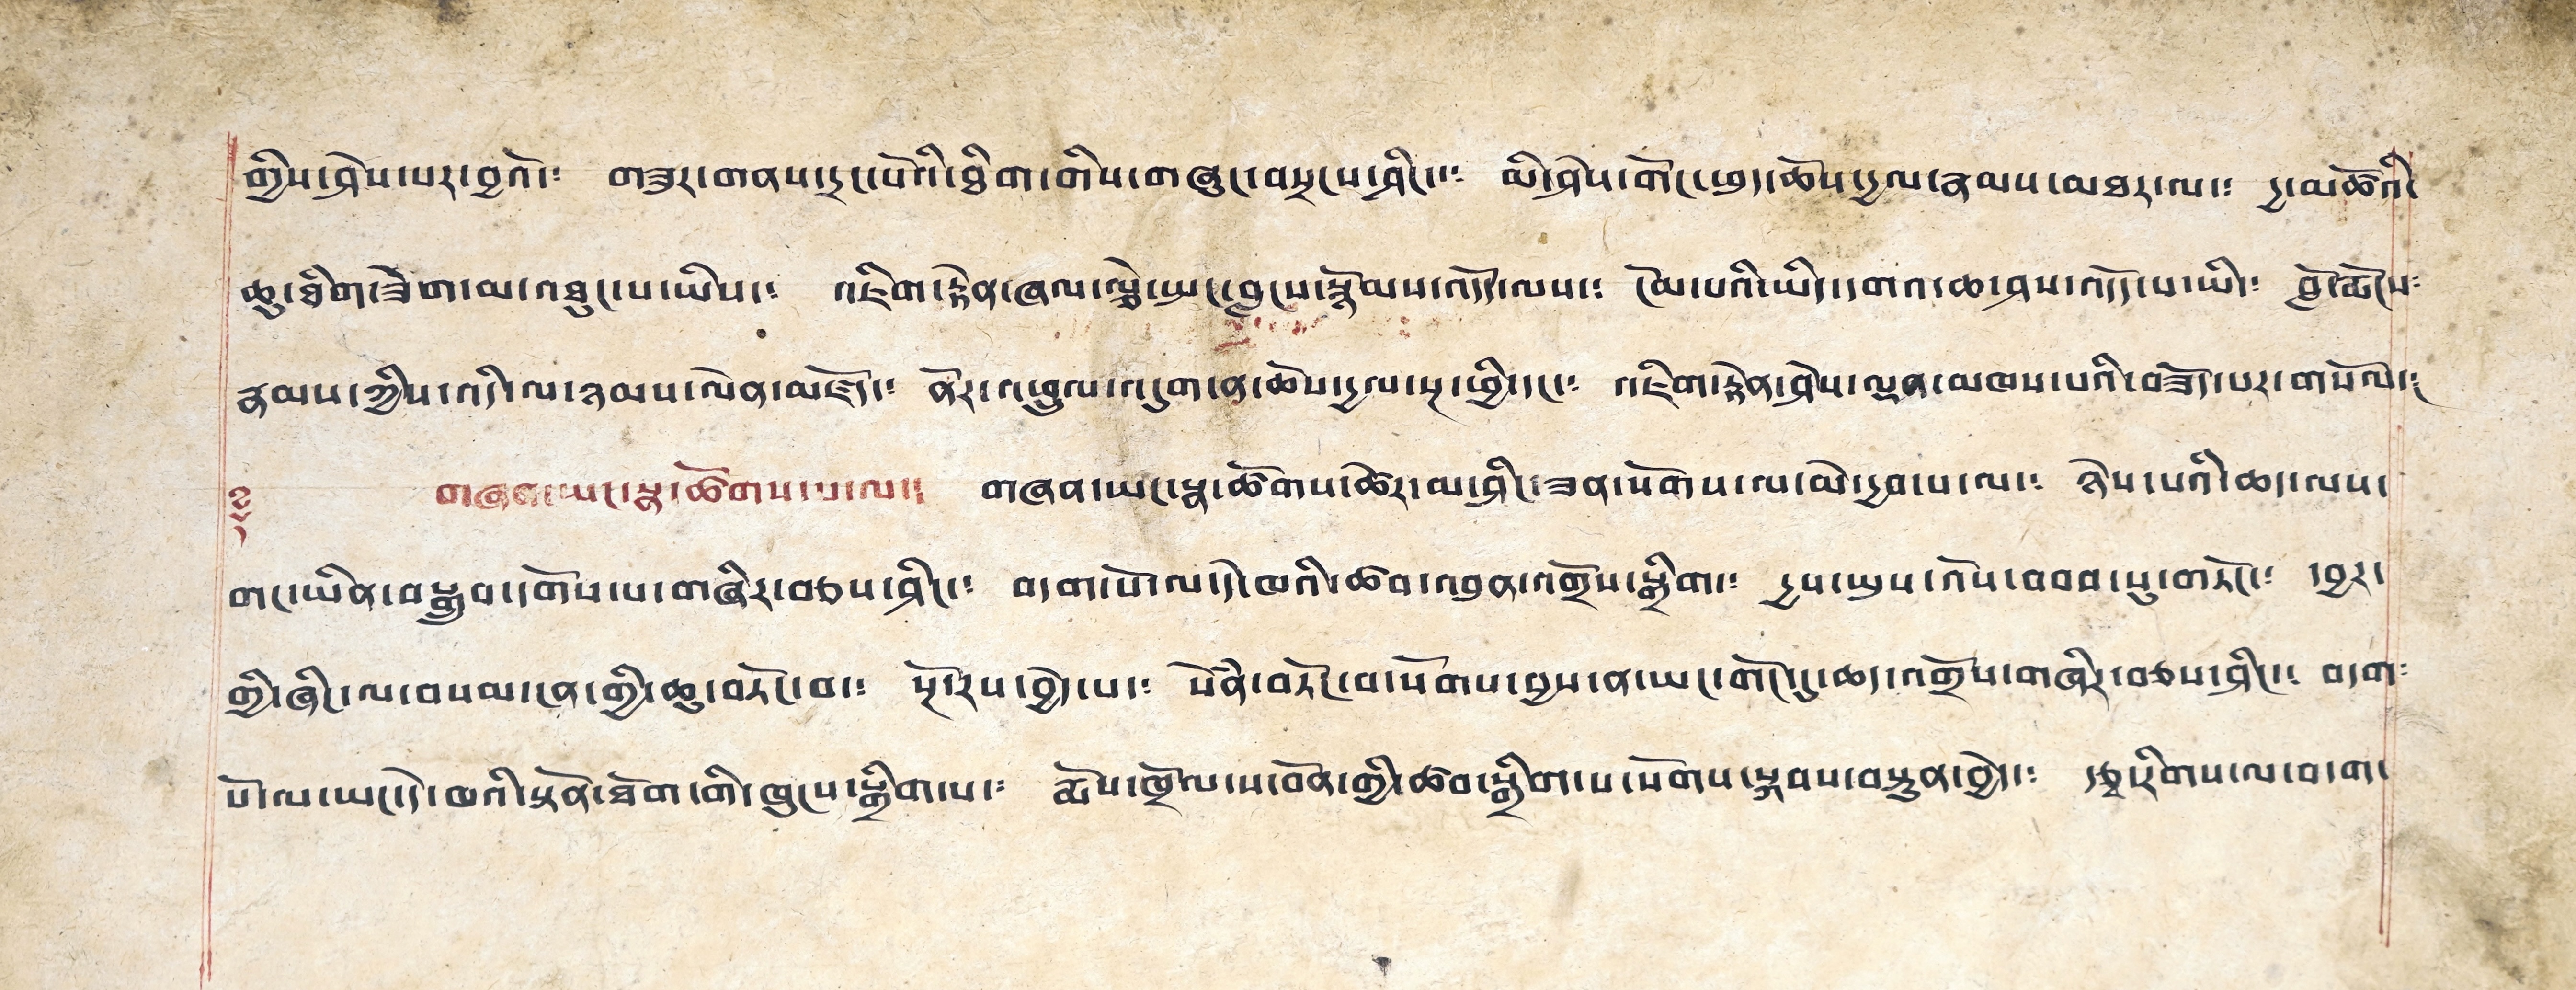གྱིས་ཤེས་པར་བྱའོ་༴ གཟུར་གནས་དྲང་པོའི་ཐིག་གིས་གཞུང་བསྲངས་ཤིང་༴ མི་ཤེས་གོང་ཕུད་ཆོས་དྱལ་རྣམས་མཐར་ལ་༴ དྱ་མཚོའ་
ཆུ་ཐིག་ཟེག་མ་འཐུང་པ་ཡིས་༴ འཇིག་རྟེན་ཞལ་ལྕེ་སྤང་བླངས་སྙོམས་འདོད་ལས་༴ ངོམ་པའི་ཡིད་དགའ་ཆ་ཤས་འདོད་པ་ཡི་༴ བློ་རྨོངས༴
རྣམས་ཀྱིས་འདི་ལ་ཉམས་ལེན་མཛོད་༴ ནོར་འཕྲུལ་འདུག་ན་ཆོས་དྱལ་སྔ་ཕྱི་དང་༴ འཇིག་རྟེན་ཤེས་ལྡན་མཁས་པའི་བཟོད་པར་གསོལ་༴
༈ གཞན་ཡང་སྣ་ཚོགས་པ་ལ་༴ གཞན་ཡང་སྣ་ཚོགས་ཚེར་མ་ཤིང་ཟན་སོགས་ལ་མེ་དྱབས་ལ་༴ ཉེས་པའི་ཆད་ལས་
གང་ཡིན་བསྒྲུབ་དགོས་པ་གཞིར་བཅས་ཤིང་༴ བདག་པོ་ལ་དེ་ཁའི་ཚབ་འབུན་འགྲོས་སྒྲིག་༴ དྱས་ཡུས་འོས་བབས་སུ་གཏོང་༴ དབྱར་
གྱི་ཞིང་ལ་བསམ་ངན་གྱི་ཆུ་བཏོང་བ་༴ སྔོ་རས་བྱེད་པ་༴ སེཾན་བཏོང་བ་སོགས་བྱས་ན་ཡང་གོང་དུ་ཆད་འགྲོས་གཞིར་བཅས་ཤིང་༴ བདག༴
པོ་ལ་ཡང་དེ་ཁའི་སྟོན་ཐོག་གི་ཁུངས་སྒྲིག་པ་༴ རྨོས་ཁྲོལ་ས་བོན་གྱི་ཚབ་སྒྲིག་པ་སོགས་སྐབས་བསྟུན་བྱེད་༴ རྩྭ་རིགས་ལ་བདག་
